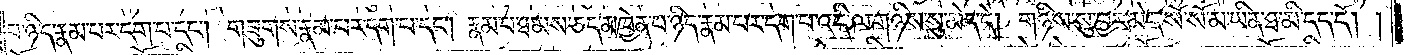པ་ཉིད་རྣམ་པར་དག་པ་དང༌། གཟུགས་རྣམ་པར་དག་པ་དང༌། རྣམ་པ་ཐམས་ཅད་མཁྱེན་པ་ཉིད་རྣམ་པར་དག་པ་འདི་ལ་གཉིས་སུ་མེད་དེ། གཉིས་སུ་བྱར་མེད་སོ་སོ་མ་ཡིན་ཐ་མི་དད་དོ། །
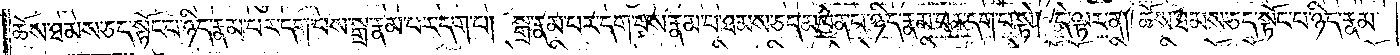ཆོས་ཐམས་ཅད་སྟོང་པ་ཉིད་རྣམ་པར་དག་པས་སྒྲ་རྣམ་པར་དག་པ། སྒྲ་རྣམ་པར་དག་པས་རྣམ་པ་ཐམས་ཅད་མཁྱེན་པ་ཉིད་རྣམ་པར་དག་པ་སྟེ། དེ་ལྟར་ན། ཆོས་ཐམས་ཅད་སྟོང་པ་ཉིད་རྣམ་
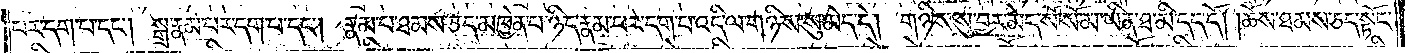པར་དག་པ་དང༌། སྒྲ་རྣམ་པར་དག་པ་དང༌། རྣམ་པ་ཐམས་ཅད་མཁྱེན་པ་ཉིད་རྣམ་པར་དག་པ་འདི་ལ་གཉིས་སུ་མེད་དེ། གཉིས་སུ་བྱར་མེད་སོ་སོ་མ་ཡིན་ཐ་མི་དད་དོ། །ཆོས་ཐམས་ཅད་སྟོང་
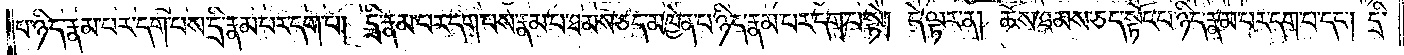པ་ཉིད་རྣམ་པར་དག་པས་དྲི་རྣམ་པར་དག་པ། དྲི་རྣམ་པར་དག་པས་རྣམ་པ་ཐམས་ཅད་མཁྱེན་པ་ཉིད་རྣམ་པར་དག་པ་སྟེ། དེ་ལྟར་ན། ཆོས་ཐམས་ཅད་སྟོང་པ་ཉིད་རྣམ་པར་དག་པ་དང༌། དྲི་
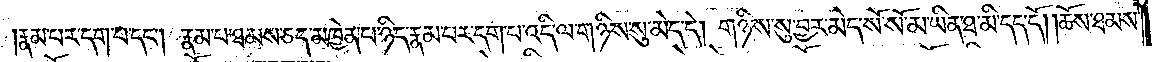རྣམ་པར་དག་པ་དང༌། རྣམ་པ་ཐམས་ཅད་མཁྱེན་པ་ཉིད་རྣམ་པར་དག་པ་འདི་ལ་གཉིས་སུ་མེད་དེ། གཉིས་སུ་བྱར་མེད་སོ་སོ་མ་ཡིན་ཐ་མི་དད་དོ། །ཆོས་ཐམས་
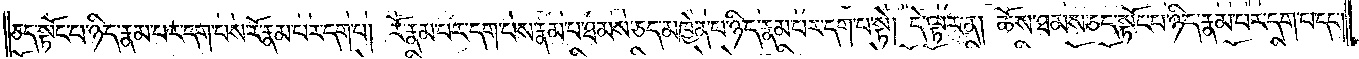ཅད་སྟོང་པ་ཉིད་རྣམ་པར་དག་པས་རོ་རྣམ་པར་དག་པ། རོ་རྣམ་པར་དག་པས་རྣམ་པ་ཐམས་ཅད་མཁྱེན་པ་ཉིད་རྣམ་པར་དག་པ་སྟེ། དེ་ལྟར་ན། ཆོས་ཐམས་ཅད་སྟོང་པ་ཉིད་རྣམ་པར་དག་པ་དང༌།
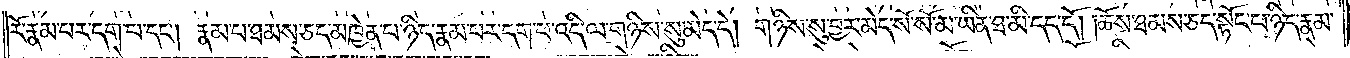རོ་རྣམ་པར་དག་པ་དང༌། རྣམ་པ་ཐམས་ཅད་མཁྱེན་པ་ཉིད་རྣམ་པར་དག་པ་འདི་ལ་གཉིས་སུ་མེད་དེ། གཉིས་སུ་བྱར་མེད་སོ་སོ་མ་ཡིན་ཐ་མི་དད་དོ། །ཆོས་ཐམས་ཅད་སྟོང་པ་ཉིད་རྣམ་
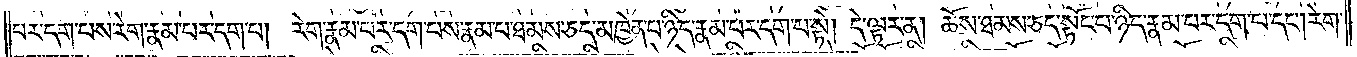པར་དག་པས་རེག་རྣམ་པར་དག་པ། རེག་རྣམ་པར་དག་པས་རྣམ་པ་ཐམས་ཅད་མཁྱེན་པ་ཉིད་རྣམ་པར་དག་པ་སྟེ། དེ་ལྟར་ན། ཆོས་ཐམས་ཅད་སྟོང་པ་ཉིད་རྣམ་པར་དག་པ་དང༌། རེག་
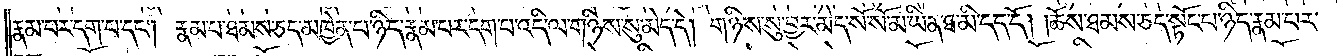རྣམ་པར་དག་པ་དང༌། རྣམ་པ་ཐམས་ཅད་མཁྱེན་པ་ཉིད་རྣམ་པར་དག་པ་འདི་ལ་གཉིས་སུ་མེད་དེ། གཉིས་སུ་བྱར་མེད་སོ་སོ་མ་ཡིན་ཐ་མི་དད་དོ། །ཆོས་ཐམས་ཅད་སྟོང་པ་ཉིད་རྣམ་པར་
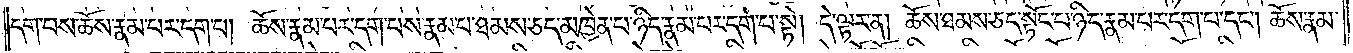དག་པས་ཆོས་རྣམ་པར་དག་པ། ཆོས་རྣམ་པར་དག་པས་རྣམ་པ་ཐམས་ཅད་མཁྱེན་པ་ཉིད་རྣམ་པར་དག་པ་སྟེ། དེ་ལྟར་ན། ཆོས་ཐམས་ཅད་སྟོང་པ་ཉིད་རྣམ་པར་དག་པ་དང༌། ཆོས་རྣམ་
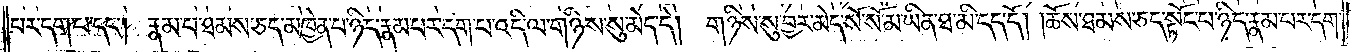པར་དག་པ་དང༌། རྣམ་པ་ཐམས་ཅད་མཁྱེན་པ་ཉིད་རྣམ་པར་དག་པ་འདི་ལ་གཉིས་སུ་མེད་དེ། གཉིས་སུ་བྱར་མེད་སོ་སོ་མ་ཡིན་ཐ་མི་དད་དོ། །ཆོས་ཐམས་ཅད་སྟོང་པ་ཉིད་རྣམ་པར་དག་
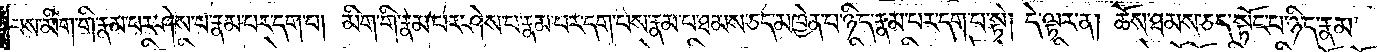པས་མིག་གི་རྣམ་པར་ཤེས་པ་རྣམ་པར་དག་པ། མིག་གི་རྣམ་པར་ཤེས་པ་རྣམ་པར་དག་པས་རྣམ་པ་ཐམས་ཅད་མཁྱེན་པ་ཉིད་རྣམ་པར་དག་པ་སྟེ། དེ་ལྟར་ན། ཆོས་ཐམས་ཅད་སྟོང་པ་ཉིད་རྣམ་
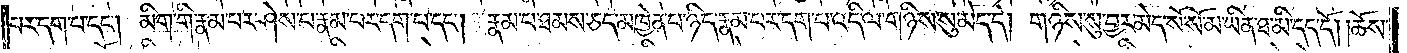པར་དག་པ་དང༌། མིག་གི་རྣམ་པར་ཤེས་པ་རྣམ་པར་དག་པ་དང༌། རྣམ་པ་ཐམས་ཅད་མཁྱེན་པ་ཉིད་རྣམ་པར་དག་པ་འདི་ལ་གཉིས་སུ་མེད་དེ། གཉིས་སུ་བྱར་མེད་སོ་སོ་མ་ཡིན་ཐ་མི་དད་དོ། །ཆོས་
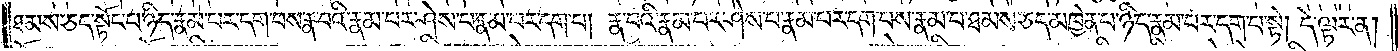ཐམས་ཅད་སྟོང་པ་ཉིད་རྣམ་པར་དག་པས་རྣ་བའི་རྣམ་པར་ཤེས་པ་རྣམ་པར་དག་པ། རྣ་བའི་རྣམ་པར་ཤེས་པ་རྣམ་པར་དག་པས་རྣམ་པ་ཐམས་ཅད་མཁྱེན་པ་ཉིད་རྣམ་པར་དག་པ་སྟེ། དེ་ལྟར་ན།
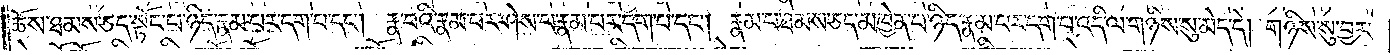ཆོས་ཐམས་ཅད་སྟོང་པ་ཉིད་རྣམ་པར་དག་པ་དང༌། རྣ་བའི་རྣམ་པར་ཤེས་པ་རྣམ་པར་དག་པ་དང༌། རྣམ་པ་ཐམས་ཅད་མཁྱེན་པ་ཉིད་རྣམ་པར་དག་པ་འདི་ལ་གཉིས་སུ་མེད་དེ། གཉིས་སུ་བྱར་
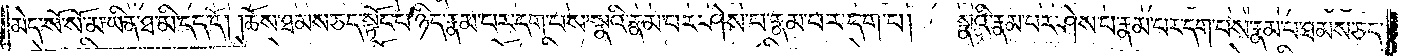མེད་སོ་སོ་མ་ཡིན་ཐ་མི་དད་དོ། །ཆོས་ཐམས་ཅད་སྟོང་པ་ཉིད་རྣམ་པར་དག་པས་སྣའི་རྣམ་པར་ཤེས་པ་རྣམ་པར་དག་པ། སྣའི་རྣམ་པར་ཤེས་པ་རྣམ་པར་དག་པས་རྣམ་པ་ཐམས་ཅད་
